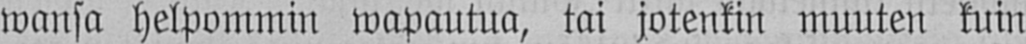wansa helpommin wapautua, tai jotenkin muuten kuin
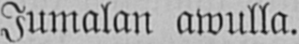Jumalan awulla.
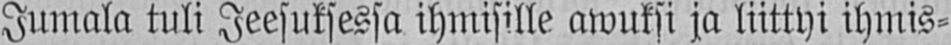Jumala tuli Jeesuksessa ihmisille awuksi ja liittyi ihmis-
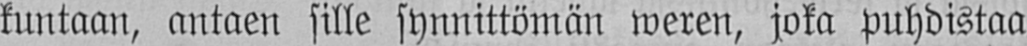kuntaan, antaen sille synnittömän weren, joka puhdistaa
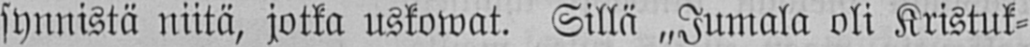synnistä niitä, jotka uskowat. Sillä „Jumala oli Kristuk-
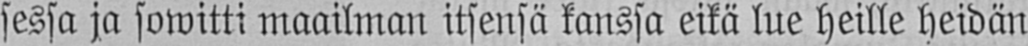sessa ja sowitti maailman itsensä kanssa eikä lue heille heidän
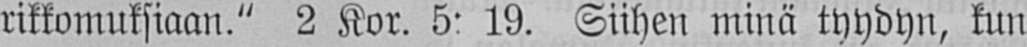rikkomuksiaan." 2 Kor. 5: 19. Siihen minä tyydyn, kun
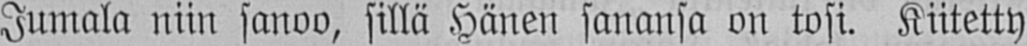Jumala niin sanoo, sillä Hänen sanansa on tosi. Kiitetty
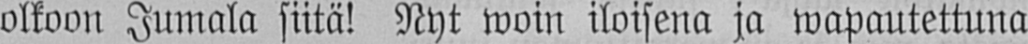olkoon Jumala siitä! Nyt woin iloisena ja wapautettuna
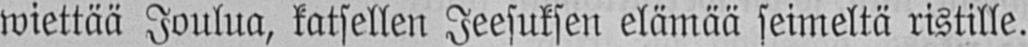wiettää Joulua, katsellen Jeesuksen elämää seimeltä ristille.
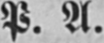P. A.
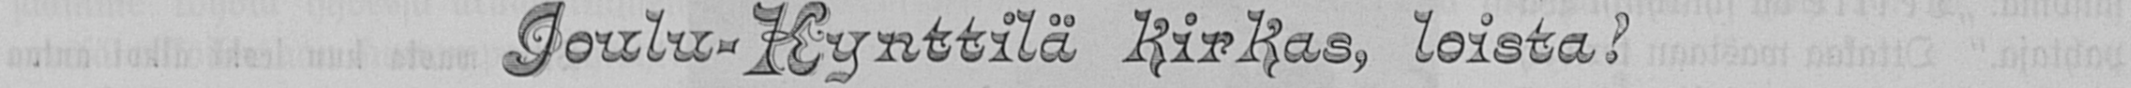Joulu-Kynttilä kirkas, loista?
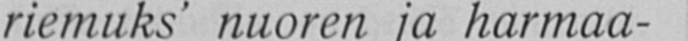Joulu-Kynttilä kirkas, loista,
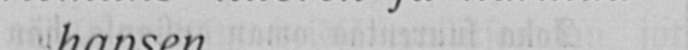poista surua orvon, poista!
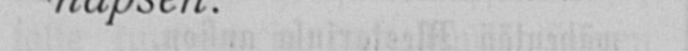Kerro synnystä Jeesus-lapsen
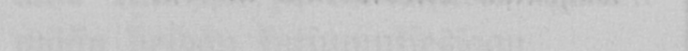riemuks' nuoren ja harmaa-
